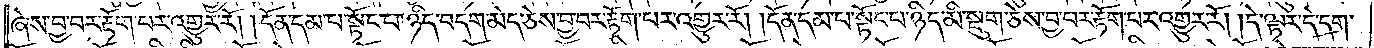ཞེས་བྱ་བར་རྟོག་པར་འགྱུར་རོ། །དོན་དམ་པ་སྟོང་པ་ཉིད་བདག་མེད་ཅེས་བྱ་བར་རྟོག་པར་འགྱུར་རོ། །དོན་དམ་པ་སྟོང་པ་ཉིད་མི་སྡུག་ཅེས་བྱ་བར་རྟོག་པར་འགྱུར་རོ། །དེ་ལྟར་དེ་དག་
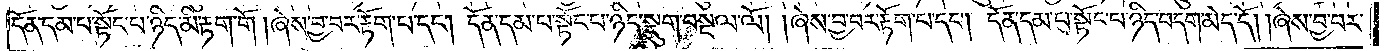དོན་དམ་པ་སྟོང་པ་ཉིད་མི་རྟག་གོ། ཞེས་བྱ་བར་རྟོག་པ་དང༌། དོན་དམ་པ་སྟོང་པ་ཉིད་སྡུག་བསྔལ་ལོ། །ཞེས་བྱ་བར་རྟོག་པ་དང༌། དོན་དམ་པ་སྟོང་པ་ཉིད་བདག་མེད་དོ། །ཞེས་བྱ་བར་
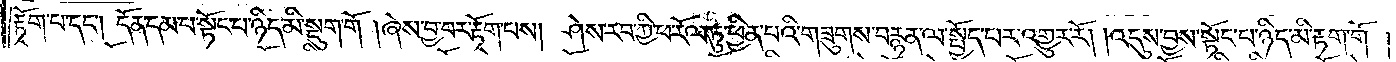རྟོག་པ་དང༌། དོན་དམ་པ་སྟོང་པ་ཉིད་མི་སྡུག་གོ། ཞེས་བྱ་བར་རྟོག་པས། ཤེས་རབ་ཀྱི་ཕ་རོལ་ཏུ་ཕྱིན་པའི་གཟུགས་བརྙན་ལ་སྤྱོད་པར་འགྱུར་རོ། །འདུས་བྱས་སྟོང་པ་ཉིད་མི་རྟག་གོ།
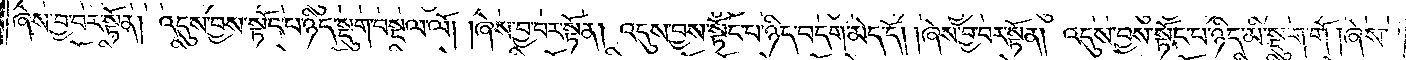ཞེས་བྱ་བར་སྟོན། འདུས་བྱས་སྟོང་པ་ཉིད་སྡུག་བསྔལ་ལོ། །ཞེས་བྱ་བར་སྟོན། འདུས་བྱས་སྟོང་པ་ཉིད་བདག་མེད་དོ། །ཞེས་བྱ་བར་སྟོན། འདུས་བྱས་སྟོང་པ་ཉིད་མི་སྡུག་གོ། ཞེས་
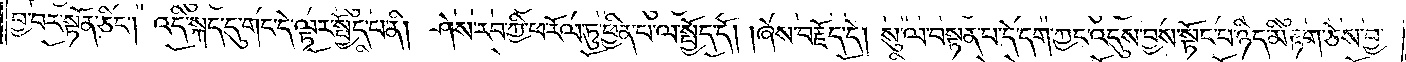བྱ་བར་སྟོན་ཅིང༌། འདི་སྐད་དུ་གང་དེ་ལྟར་སྤྱོད་པ་ནི། ཤེས་རབ་ཀྱི་ཕ་རོལ་ཏུ་ཕྱིན་པ་ལ་སྤྱོད་དོ། །ཞེས་བརྗོད་དེ། སུ་ལ་བསྟན་པ་དེ་དག་ཀྱང་འདུས་བྱས་སྟོང་པ་ཉིད་མི་རྟག་ཅེས་བྱ་
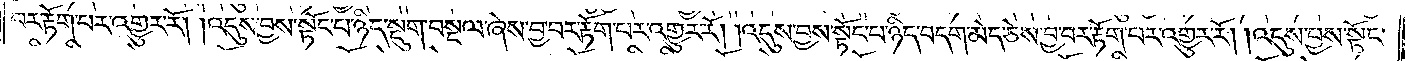བར་རྟོག་པར་འགྱུར་རོ། །འདུས་བྱས་སྟོང་པ་ཉིད་སྡུག་བསྔལ་ཞེས་བྱ་བར་རྟོག་པར་འགྱུར་རོ། །འདུས་བྱས་སྟོང་པ་ཉིད་བདག་མེད་ཅེས་བྱ་བར་རྟོག་པར་འགྱུར་རོ། །འདུས་བྱས་སྟོང་
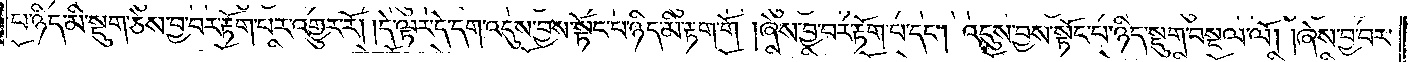པ་ཉིད་མི་སྡུག་ཅེས་བྱ་བར་རྟོག་པར་འགྱུར་རོ། །དེ་ལྟར་དེ་དག་འདུས་བྱས་སྟོང་པ་ཉིད་མི་རྟག་གོ། ཞེས་བྱ་བར་རྟོག་པ་དང༌། འདུས་བྱས་སྟོང་པ་ཉིད་སྡུག་བསྔལ་ལོ། །ཞེས་བྱ་བར་
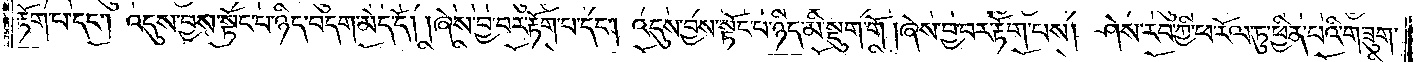རྟོག་པ་དང༌། འདུས་བྱས་སྟོང་པ་ཉིད་བདག་མེད་དོ། །ཞེས་བྱ་བར་རྟོག་པ་དང༌། འདུས་བྱས་སྟོང་པ་ཉིད་མི་སྡུག་གོ། ཞེས་བྱ་བར་རྟོག་པས། ཤེས་རབ་ཀྱི་ཕ་རོལ་ཏུ་ཕྱིན་པའི་གཟུགས་
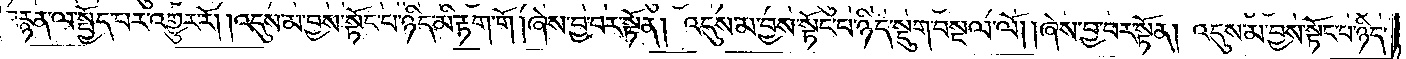བརྙན་ལ་སྤྱོད་པར་འགྱུར་རོ། །འདུས་མ་བྱས་སྟོང་པ་ཉིད་མི་རྟག་གོ། ཞེས་བྱ་བར་སྟོན། འདུས་མ་བྱས་སྟོང་པ་ཉིད་སྡུག་བསྔལ་ལོ། །ཞེས་བྱ་བར་སྟོན། འདུས་མ་བྱས་སྟོང་པ་ཉིད་
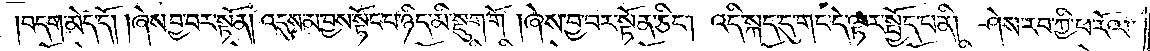བདག་མེད་དོ། །ཞེས་བྱ་བར་སྟོན། འདུས་མ་བྱས་སྟོང་པ་ཉིད་མི་སྡུག་གོ། ཞེས་བྱ་བར་སྟོན་ཅིང༌། འདི་སྐད་དུ་གང་དེ་ལྟར་སྤྱོད་པ་ནི། ཤེས་རབ་ཀྱི་ཕ་རོལ་
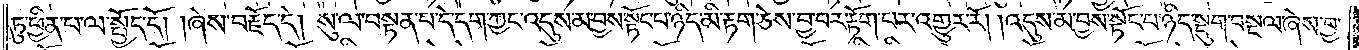ཏུ་ཕྱིན་པ་ལ་སྤྱོད་དོ། །ཞེས་བརྗོད་དེ། སུ་ལ་བསྟན་པ་དེ་དག་ཀྱང་འདུས་མ་བྱས་སྟོང་པ་ཉིད་མི་རྟག་ཅེས་བྱ་བར་རྟོག་པར་འགྱུར་རོ། །འདུས་མ་བྱས་སྟོང་པ་ཉིད་སྡུག་བསྔལ་ཞེས་བྱ་
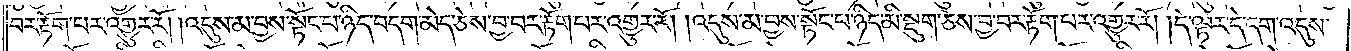བར་རྟོག་པར་འགྱུར་རོ། །འདུས་མ་བྱས་སྟོང་པ་ཉིད་བདག་མེད་ཅེས་བྱ་བར་རྟོག་པར་འགྱུར་རོ། །འདུས་མ་བྱས་སྟོང་བ་ཉིད་མི་སྡུག་ཅེས་བྱ་བར་རྟོག་པར་འགྱུར་རོ། །དེ་ལྟར་དེ་དག་འདུས་
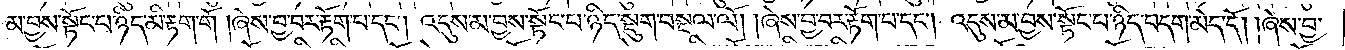མ་བྱས་སྟོང་པ་ཉིད་མི་རྟག་གོ། ཞེས་བྱ་བར་རྟོག་པ་དང༌། འདུས་མ་བྱས་སྟོང་པ་ཉིད་སྡུག་བསྔལ་ལོ། །ཞེས་བྱ་བར་རྟོག་པ་དང༌། འདུས་མ་བྱས་སྟོང་པ་ཉིད་བདག་མེད་དོ། །ཞེས་བྱ་
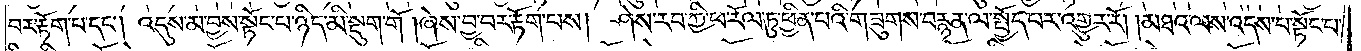བར་རྟོག་པ་དང༌། འདུས་མ་བྱས་སྟོང་པ་ཉིད་མི་སྡུག་གོ། ཞེས་བྱ་བར་རྟོག་པས། ཤེས་རབ་ཀྱི་ཕ་རོལ་ཏུ་ཕྱིན་པའི་གཟུགས་བརྙན་ལ་སྤྱོད་པར་འགྱུར་རོ། །མཐའ་ལས་འདས་པ་སྟོང་པ་
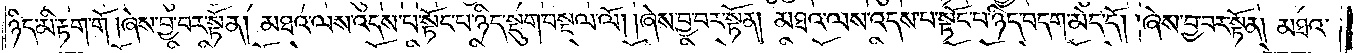ཉིད་མི་རྟག་གོ། ཞེས་བྱ་བར་སྟོན། མཐའ་ལས་འདས་པ་སྟོང་པ་ཉིད་སྡུག་བསྔལ་ལོ། །ཞེས་བྱ་བར་སྟོན། མཐའ་ལས་འདས་པ་སྟོང་པ་ཉིད་བདག་མེད་དོ། །ཞེས་བྱ་བར་སྟོན། མཐའ་
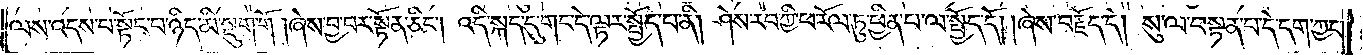ལས་འདས་པ་སྟོང་པ་ཉིད་མི་སྡུག་གོ། ཞེས་བྱ་བར་སྟོན་ཅིང༌། འདི་སྐད་དུ་གང་དེ་ལྟར་སྤྱོད་པ་ནི། ཤེས་རབ་ཀྱི་ཕ་རོལ་ཏུ་ཕྱིན་པ་ལ་སྤྱོད་དོ། །ཞེས་བརྗོད་དེ། སུ་ལ་བསྟན་པ་དེ་དག་ཀྱང་
